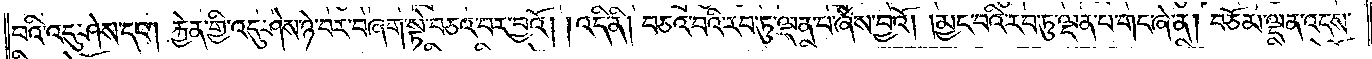པའི་འདུ་ཤེས་དང༌། རྐྱེན་གྱི་འདུ་ཤེས་ཉེ་བར་བཞག་སྟེ་བཅའ་བར་བྱའོ། །འདི་ནི། བཅའ་བའི་རབ་ཏུ་ལྡན་པ་ཞེས་བྱའོ། །མྱང་བའི་རབ་ཏུ་ལྡན་པ་གང་ཞེ་ན། བཅོམ་ལྡན་འདས་
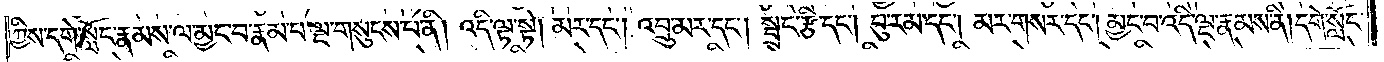ཀྱིས་དགེ་སློང་རྣམས་ལ་མྱང་བ་རྣམ་པ་ལྔ་གསུངས་པ་ནི། འདི་ལྟ་སྟེ། མར་དང༌། འབྲུ་མར་དང༌། སྦྲང་རྩི་དང༌། བུ་རམ་དང༌། མར་གསར་དང༌། མྱང་བ་འདི་ལྔ་རྣམས་ནི། དགེ་སློང་
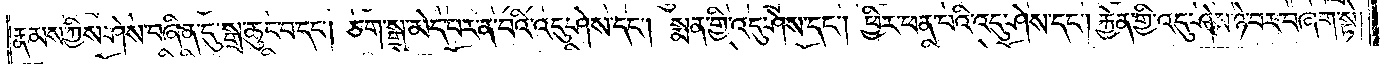རྣམས་ཀྱིས་ཤེས་བཞིན་དུ་སྒྲ་ཆུང་བ་དང༌། ཅག་སྒྲ་མེད་པར་ན་བའི་འདུ་ཤེས་དང༌། སྨན་གྱི་འདུ་ཤེས་དང༌། ཕྱིར་ཕན་པའི་འདུ་ཤེས་དང༌། རྐྱེན་གྱི་འདུ་ཤེས་ཉེ་བར་བཞག་སྟེ།
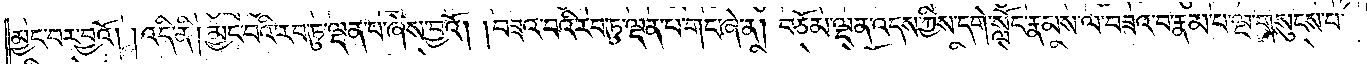མྱང་བར་བྱའོ། །འདི་ནི། མྱང་བའི་རབ་ཏུ་ལྡན་པ་ཞེས་བྱའོ། །བཟའ་བའི་རབ་ཏུ་ལྡན་པ་གང་ཞེ་ན། བཅོམ་ལྡན་འདས་ཀྱིས་དགེ་སློང་རྣམས་ལ་བཟའ་བ་རྣམ་པ་ལྔ་གསུངས་པ་
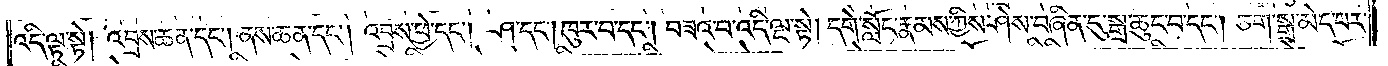འདི་ལྟ་སྟེ། འབྲས་ཆན་དང༌། ནས་ཆན་དང༌། འབྲས་ཕྱེ་དང༌། ཤ་དང༌། ཁུར་བ་དང༌། བཟའ་བ་འདི་ལྔ་སྟེ། དགེ་སློང་རྣམས་ཀྱིས་ཤེས་བཞིན་དུ་སྒྲ་ཆུང་བ་དང༌། ཅག་སྒྲ་མེད་པར་
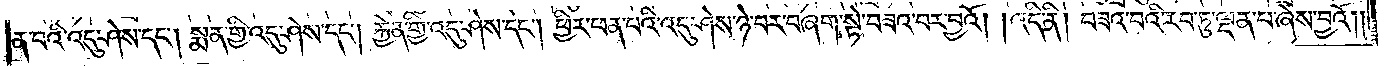ན་བའི་འདུ་ཤེས་དང༌། སྨན་གྱི་འདུ་ཤེས་དང༌། རྐྱེན་གྱི་འདུ་ཤེས་དང༌། ཕྱིར་ཕན་པའི་འདུ་ཤེས་ཉེ་བར་བཞག་སྟེ་བཟའ་བར་བྱའོ། །འདི་ནི། བཟའ་བའི་རབ་ཏུ་ལྡན་པ་ཞེས་བྱའོ། །
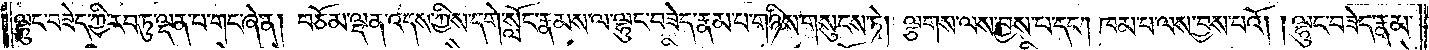ལྷུང་བཟེད་ཀྱི་རབ་ཏུ་ལྡན་པ་གང་ཞེ་ན། བཅོམ་ལྡན་འདས་ཀྱིས་དགེ་སློང་རྣམས་ལ་ལྷུང་བཟེད་རྣམ་པ་གཉིས་གསུངས་ཏེ། ལྕགས་ལས་བྱས་པ་དང༌། ཁམ་པ་ལས་བྱས་པའོ། །ལྷུང་བཟེད་རྣམ་
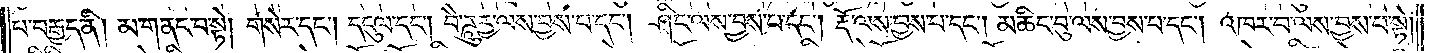པ་བརྒྱད་ནི། མ་གནང་བ་སྟེ། གསེར་དང༌། དངུལ་དང༌། བཻ་ཌཱུཪྻ་ལས་བྱས་པ་དང༌། ཤིང་ལས་བྱས་པ་དང༌། རྡོ་ལས་བྱས་པ་དང༌། མཆིང་བུ་ལས་བྱས་པ་དང༌། འཁར་བ་ལས་བྱས་པ་སྟེ།
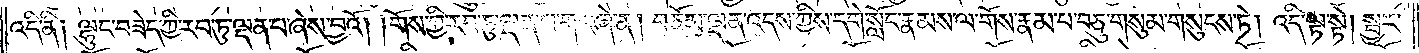འདི་ནི༑ ལྷུང་བཟེད་ཀྱི་རབ་ཏུ་ལྡན་པ་ཞེས་བྱའོ། །གོས་ཀྱི་རབ་ཏུ་ལྡན་པ་གང་ཞེ་ན། བཅོམ་ལྡན་འདས་ཀྱིས་དགེ་སློང་རྣམས་ལ་གོས་རྣམ་པ་བཅུ་གསུམ་གསུངས་ཏེ། འདི་ལྟ་སྟེ། སྦྱར་
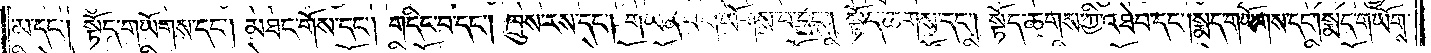མ་དང༌། སྟོད་གཡོགས་དང༌། མཐང་གོས་དང༌། གདིང་བ་དང༌། ཁྲུས་རས་དང༌། གཡན་པ་གཡོགས་པ་དང༌། སྟོད་ཆགས་དང༌། སྟོད་ཆགས་ཀྱི་འཐེབ་དང༌། སྨད་གཡོགས་དང༌། སྨད་གཡོགས་
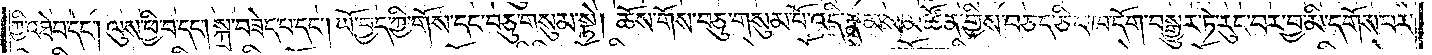ཀྱི་འཐེབ་དང༌། ལུས་ཕྱི་བ་དང༌། སྐྲ་བཟེད་པ་དང༌། ཡོ་བྱད་ཀྱི་གོས་དང་བཅུ་གསུམ་སྟེ། ཆོས་གོས་བཅུ་གསུམ་པོ་འདི་རྣམས་མཚོན་གྱིས་བཅད་ཅིང་ཁ་དོག་བསྒྱུར་ཏེ་རུང་བར་བྱ་མི་དགོས་པར་
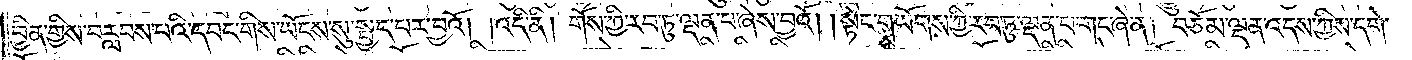བྱིན་གྱིས་བརླབས་པའི་དབང་གིས་ཡོངས་སུ་སྤྱད་པར་བྱའོ། །འདི་ནི། གོས་ཀྱི་རབ་ཏུ་ལྡན་པ་ཞེས་བྱའོ། །སྟེང་གཡོགས་ཀྱི་རབ་ཏུ་ལྡན་པ་གང་ཞེ་ན། བཅོམ་ལྡན་འདས་ཀྱིས་དགེ་
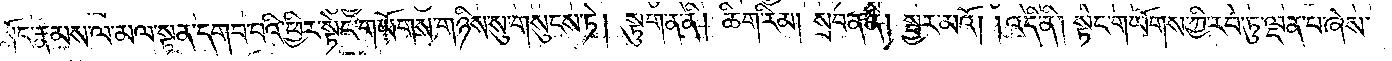སློང་རྣམས་ལ་མལ་སྟན་དགབ་པའི་ཕྱིར་སྟེང་གཡོགས་གཉིས་སུ་གསུངས་ཏེ། སྟུག་ན་ནི། ཆིག་རིམ། སྲབ་ན་ནི། སྦྱར་མའོ། །འདི་ནི། སྟེང་གཡོགས་ཀྱི་རབ་ཏུ་ལྡན་པ་ཞེས་
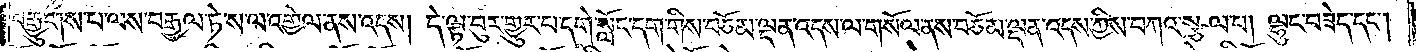བརྒྱུགས་པ་ལས་བརྒྱལ་ཏེ་ས་ལ་འགྱེལ་ནས་འདས། དེ་ལྟ་བུར་གྱུར་པ་དགེ་སློང་དག་གིས་བཅོམ་ལྡན་འདས་ལ་གསོལ་ནས་བཅོམ་ལྡན་འདས་ཀྱིས་བཀའ་སྩལ་པ། ལྷུང་བཟེད་དང༌།
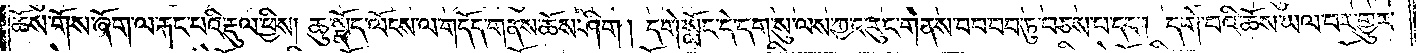ཆོས་གོས་ཞོག་ལ་རྐང་པའི་རྡུལ་ཕྱིས། ཆུ་སྣོད་ལོངས་ལ་གདོད་གནས་ཆོས་ཤིག །དགེ་སློང་དེ་དག་སུ་ལས་ཀྱང་རུང་གནས་བབ་བབ་ཏུ་བཅས་པ་དང༌། དགེ་བའི་ཆོས་ཡལ་བར་གྱུར་
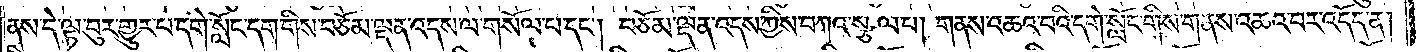ནས་དེ་ལྟ་བུར་གྱུར་པ་དགེ་སློང་དག་གིས་བཅོམ་ལྡན་འདས་ལ་གསོལ་པ་དང༌། བཅོམ་ལྡན་འདས་ཀྱིས་བཀའ་སྩལ་པ། གནས་འཆའ་བའི་དགེ་སློང་གིས་གནས་འཆའ་བར་འདོད་ན།
